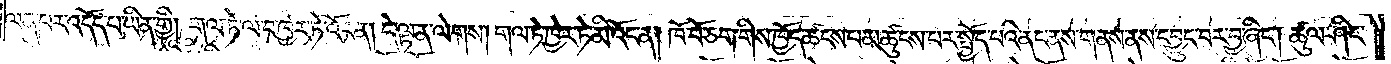ལན་པར་འདོད་པ་ཡིན་གྱི། གལ་ཏེ་ལ་བ་ཁྱེར་ཏེ་འོང་ན། དེ་ལྟ་ན་ལེགས། གལ་ཏེ་ཁྱེར་ཏེ་མི་འོང་ན། ཁོ་བོ་ཅག་གིས་ཁྱོད་ཚངས་པ་མཚུངས་པར་སྤྱོད་པའི་ནང་ནས་གནས་ནས་དབྱུང་བར་བྱ་ཞིང༌། ཚུལ་ཤིང་
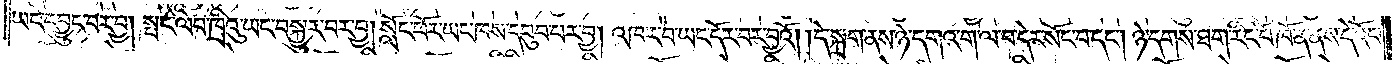ཡང་དབྱུང་བར་བྱ། སྤང་ལེབ་ཁྲིའུ་ཡང་བསྐྱུར་བར་བྱ། སློང་ཕོར་ཡང་ཁས་དབུབ་པར་བྱ། འཁར་བ་ཡང་དོར་བར་བྱའོ། །དེ་སྐྲག་ནས་ཉེ་དགའ་ག་ལ་བ་དེར་སོང་བ་དང༌། ཉེ་དགས་ཐག་རིང་པོ་ཁོ་ན་ནས་དེ་འོང་
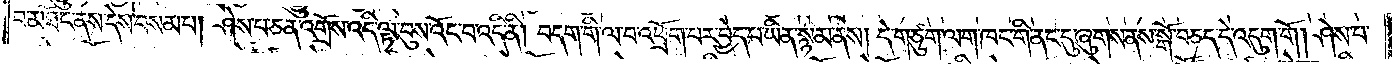བ་མཐོང་ནས་དེས་བསམ་པ། ཤེས་པ་ཅན་འགྲོས་འདི་ལྟ་བུས་འོང་བ་འདི་ནི། བདག་གི་ལ་བ་འཕྲོག་པར་བྱེད་པ་ཡིན་སྙམ་ནས། དེ་གཙུག་ལག་ཁང་གི་ནང་དུ་ཞུགས་ནས་སྒོ་བཅད་དེ་འདུག་གོ། ཤེས་པ་
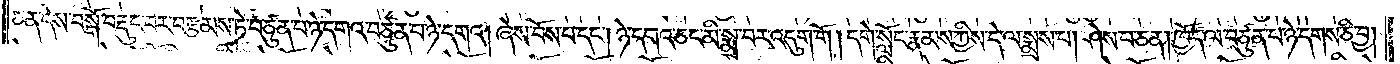ཅན་དེས་བསྒོ་བརྡུང་བར་བརྩམས་ཏེ་བཙུན་པ་ཉེ་དགའ་བཙུན་པ་ཉེ་དགའ། ཞེས་བོས་པ་དང༌། ཉེ་དགའ་ཅང་མི་སྨྲ་བར་འདུག་གོ ། དགེ་སློང་རྣམས་ཀྱིས་དེ་ལ་སྨྲས་པ། ཤེས་པ་ཅན། ཁྱོད་ལ་བཙུན་པ་ཉེ་དགས་ཅི་བྱ།
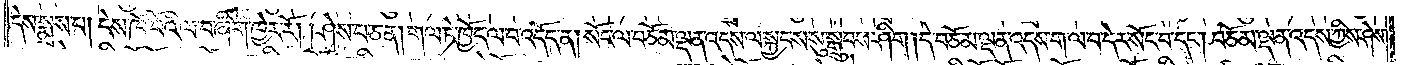དེས་སྨྲས་པ། དེས་ཁོ་བོའི་ལ་བ་ཞིག་ཁྱེར་རོ། །ཤེས་པ་ཅན། གལ་ཏེ་ཁྱོད་ལ་བ་འདོད་ན། སོང་ལ་བཅོམ་ལྡན་འདས་ལ་སྐྱབས་སུ་སྒྲུབས་ཤིག།དེ་བཅོམ་ལྡན་འདས་ག་ལ་བ་དེར་སོང་བ་དང༌། བཅོམ་ལྡན་འདས་ཀྱིས་ཤེས་
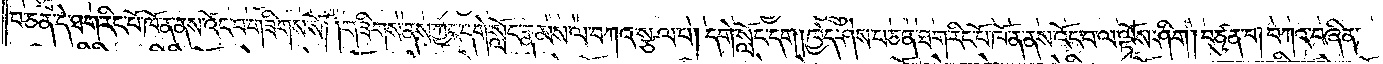པ་ཅན་དེ་ཐག་རིང་པོ་ཁོ་ན་ནས་འོང་བ་གཟིགས་སོ། །གཟིགས་ནས་ཀྱང་དགེ་སློང་རྣམས་ལ་བཀའ་སྩལ་པ། དགེ་སློང་དག། ཁྱེད་ཤེས་པ་ཅན་ཐག་རིང་པོ་ཁོ་ན་ནས་འོང་བ་ལ་ལྟོས་ཤིག།བཙུན་པ། བཀའ་བཞིན་
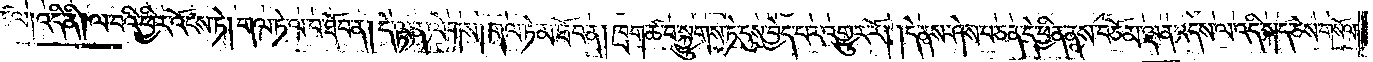འཚལ།འདི་ནི། ལ་བའི་ཕྱིར་འོངས་ཏེ། གལ་ཏེ་ལ་བ་ཐོབ་ན། དེ་ལྟ་ན་ལེགས།གལ་ཏེ་མ་ཐོབ་ན།ཁྲག་ཚ་བ་སྐྱུགས་ཏེ་དུས་བྱེད་པར་འགྱུར་རོ། །དེ་ནས་ཤེས་པ་ཅན་དེ་ཕྱིན་ནས་བཅོམ་ལྡན་འདས་ལ་འདི་སྐད་ཅེས་གསོལ་
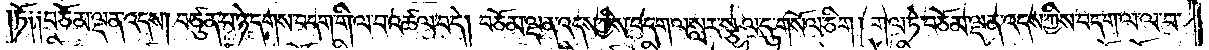ཏོ༑ ༑བཅོམ་ལྡན་འདས། བཙུན་པ་ཉེ་དགས་བདག་གི་ལ་བ་འཚལ་བ་དེ། བཅོམ་ལྡན་འདས་ཀྱིས་བདག་ལ་སླར་སྩལ་དུ་གསོལ་ཅིག། གལ་ཏེ་བཅོམ་ལྡན་འདས་ཀྱིས་བདག་ལ་ལ་བ་
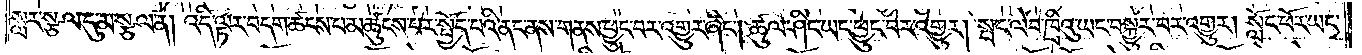སླར་སྩལ་དུ་མ་སྩལ་ན། འདི་ལྟར་བདག་ཚངས་པ་མཚུངས་པར་སྤྱོད་པའི་ནང་ནས་གནས་ཕྱུང་བར་འགྱུར་ཞིང༌། ཚུལ་ཤིང་ཡང་ཕྱུང་བར་འགྱུར། སྤང་ལེབ་ཁྲིའུ་ཡང་བསྐྱུར་བར་འགྱུར། སློང་ཕོར་ཡང་
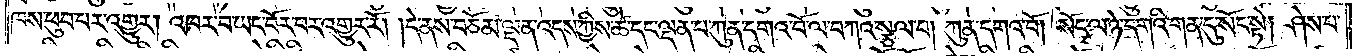ཁས་ཕུབ་པར་འགྱུར། འཁར་བ་ཡང་བོར་བར་འགྱུར་རོ། །དེ་ནས་བཅོམ་ལྡན་འདས་ཀྱིས་ཚེ་དང་ལྡན་པ་ཀུན་དགའ་བོ་ལ་བཀའ་སྩལ་པ། ཀུན་དགའ་བོ། སོང་ལ་ཉེ་དགའི་གན་དུ་སོང་སྟེ། ཤེས་པ་
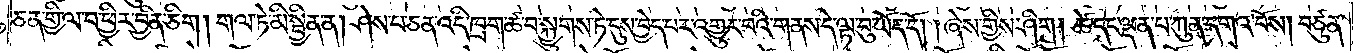ཅན་གྱི་ལ་བ་ཕྱིར་བྱིན་ཅིག །གལ་ཏེ་མི་སྦྱིན་ན། ཤེས་པ་ཅན་འདི་ཁྲག་ཚ་བ་སྐྱུགས་ཏེ་དུས་བྱེད་པར་འགྱུར་བའི་གནས་དེ་ལྟ་བུ་ཡོད་དོ། །ཞེས་གྱིས་ཤིག །ཚེ་དང་ལྡན་པ་ཀུན་དགའ་བོས། བཙུན་
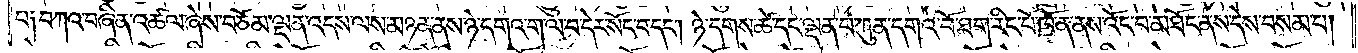པ༑ བཀའ་བཞིན་འཚལ་ཞེས་བཅོམ་ལྡན་འདས་ལས་མཉན་ནས་ཉེ་དགའ་ག་ལ་བ་དེར་སོང་བ་དང༌། ཉེ་དགས་ཚེ་དང་ལྡན་པ་ཀུན་དགའ་བོ་ཐག་རིང་པོ་ཁོ་ན་ནས་འོང་བ་མཐོང་ནས་དེས་བསམ་པ།
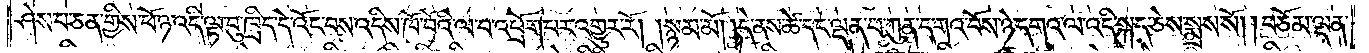ཤེས་པ་ཅན་གྱིས་ཕོ་ཉ་འདི་ལྟ་བུ་ཁྲིད་དེ་འོང་བས་འདིས་ཁོ་བོའི་ལ་བ་འཕྲོག་པར་འགྱུར་རོ། །སྙམ་མོ། །དེ་ནས་ཚེ་དང་ལྡན་པ་ཀུན་དགའ་བོས་ཉེ་དགའ་ལ་འདི་སྐད་ཅེས་སྨྲས་སོ། །བཅོམ་ལྡན་
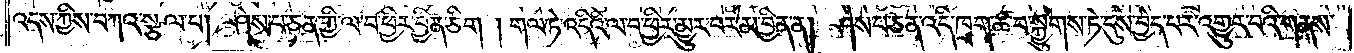འདས་ཀྱིས་བཀའ་སྩལ་པ། ཤེས་པ་ཅན་གྱི་ལ་བ་ཕྱིར་བྱིན་ཅིག ། གལ་ཏེ་འདིའི་ལ་བ་ཕྱིར་མྱུར་བར་མ་བྱིན་ན། ཤེས་པ་ཅན་འདི་ཁྲག་ཚ་བ་སྐྱུགས་ཏེ་དུས་བྱེད་པར་འགྱུར་བའི་གནས་
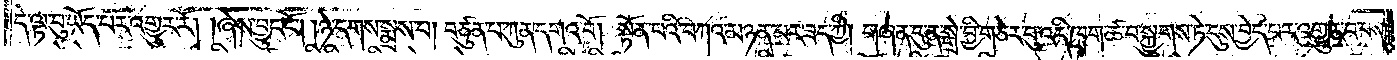དེ་ལྟ་བུ་ཡོད་པར་འགྱུར་རོ། །ཞེས་བྱུང་ངོ༌། །ཉེ་དགས་སྨྲས་པ། བཙུན་པ་ཀུན་དགའ་བོ། སྟོན་པའི་བཀའ་མཉན་པར་ཟད་ཀྱི། གཞན་དུ་ན་སྒྲེ་བྱི་གཅེར་བུ་འདི་ཁྲག་ཚ་བ་སྐྱུགས་ཏེ་དུས་བྱེད་པར་འགྱུར་བ་བས་
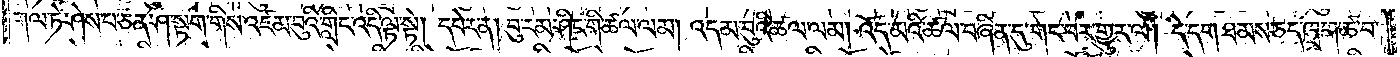གལ་ཏེ་ཤེས་པ་ཅན་ཤ་སྟག་གིས་འཛམ་བུའི་གླིང་འདི་ལྟ་སྟེ། དཔེར་ན། བུ་རམ་ཤིང་གི་ཚལ་ལམ། འདམ་བུའི་ཚལ་ལམ། འོད་མའི་ཚལ་བཞིན་དུ་གང་བར་གྱུར་ལ། དེ་དག་ཐམས་ཅད་ཁྲག་ཚ་བ་
